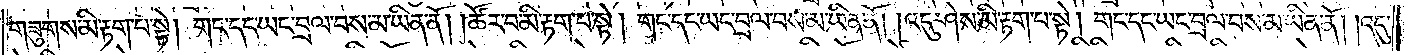གཟུགས་མི་རྟག་པ་སྟེ། གང་དང་ཡང་བྲལ་བས་མ་ཡིན་ནོ། །ཚོར་བ་མི་རྟག་པ་སྟེ། གང་དང་ཡང་བྲལ་བས་མ་ཡིན་ནོ། །འདུ་ཤེས་མི་རྟག་པ་སྟེ། གང་དང་ཡང་བྲལ་བས་མ་ཡིན་ནོ། །འདུ་
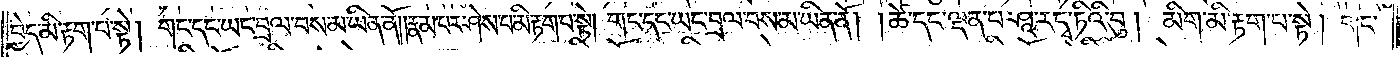བྱེད་མི་རྟག་པ་སྟེ། གང་དང་ཡང་བྲལ་བས་མ་ཡིན་ནོ། །རྣམ་པར་ཤེས་པ་མི་རྟག་པ་སྟེ། གང་དང་ཡང་བྲལ་བས་མ་ཡིན་ནོ། །ཚེ་དང་ལྡན་པ་ཤཱ་ར་དྭ་ཏིའི་བུ། མིག་མི་རྟག་པ་སྟེ། གང་
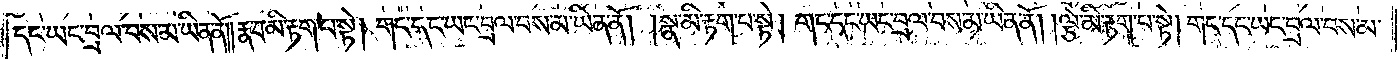དང་ཡང་བྲལ་བས་མ་ཡིན་ནོ། །རྣ་བ་མི་རྟག་པ་སྟེ། གང་དང་ཡང་བྲལ་བས་མ་ཡིན་ནོ། །སྣ་མི་རྟག་པ་སྟེ། གང་དང་ཡང་བྲལ་བས་མ་ཡིན་ནོ། །ལྕེ་མི་རྟག་པ་སྟེ། གང་དང་ཡང་བྲལ་བས་མ་
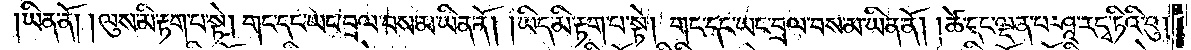ཡིན་ནོ། །ལུས་མི་རྟག་པ་སྟེ། གང་དང་ཡང་བྲལ་བས་མ་ཡིན་ནོ། །ཡིད་མི་རྟག་པ་སྟེ། གང་དང་ཡང་བྲལ་བས་མ་ཡིན་ནོ། །ཚེ་དང་ལྡན་པ་ཤཱ་ར་དྭ་ཏིའི་བུ།
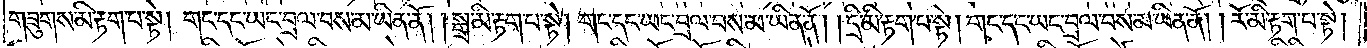གཟུགས་མི་རྟག་པ་སྟེ། གང་དང་ཡང་བྲལ་བས་མ་ཡིན་ནོ། །སྒྲ་མི་རྟག་པ་སྟེ། གང་དང་ཡང་བྲལ་བས་མ་ཡིན་ནོ། །དྲི་མི་རྟག་པ་སྟེ། གང་དང་ཡང་བྲལ་བས་མ་ཡིན་ནོ། །རོ་མི་རྟག་པ་སྟེ།
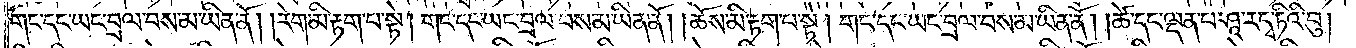གང་དང་ཡང་བྲལ་བས་མ་ཡིན་ནོ། །རེག་མི་རྟག་པ་སྟེ། གང་དང་ཡང་བྲལ་བས་མ་ཡིན་ནོ། །ཆོས་མི་རྟག་པ་སྟེ། གང་དང་ཡང་བྲལ་བས་མ་ཡིན་ནོ། །ཚེ་དང་ལྡན་པ་ཤཱ་ར་དྭ་ཏིའི་བུ།
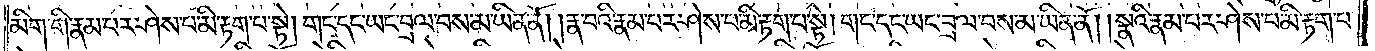མིག་གི་རྣམ་པར་ཤེས་པ་མི་རྟག་པ་སྟེ། གང་དང་ཡང་བྲལ་བས་མ་ཡིན་ནོ། །རྣ་བའི་རྣམ་པར་ཤེས་པ་མི་རྟག་པ་སྟེ། གང་དང་ཡང་བྲལ་བས་མ་ཡིན་ནོ། །སྣའི་རྣམ་པར་ཤེས་པ་མི་རྟག་པ་
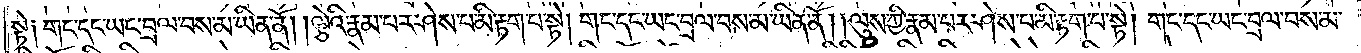སྟེ། གང་དང་ཡང་བྲལ་བས་མ་ཡིན་ནོ། །ལྕེའི་རྣམ་པར་ཤེས་པ་མི་རྟག་པ་སྟེ། གང་དང་ཡང་བྲལ་བས་མ་ཡིན་ནོ། །ལུས་ཀྱི་རྣམ་པར་ཤེས་པ་མི་རྟག་པ་སྟེ། གང་དང་ཡང་བྲལ་བས་མ་
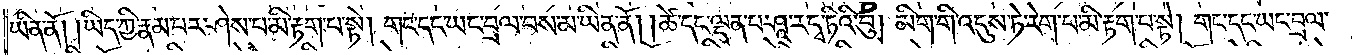ཡིན་ནོ། །ཡིད་ཀྱི་རྣམ་པར་ཤེས་པ་མི་རྟག་པ་སྟེ། གང་དང་ཡང་བྲལ་བས་མ་ཡིན་ནོ། །ཚེ་དང་ལྡན་པ་ཤཱ་ར་དྭ་ཏིའི་བུ། མིག་གི་འདུས་ཏེ་རེག་པ་མི་རྟག་པ་སྟེ། གང་དང་ཡང་བྲལ་
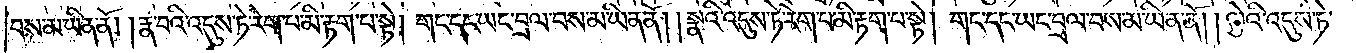བས་མ་ཡིན་ནོ། །རྣ་བའི་འདུས་ཏེ་རེག་པ་མི་རྟག་པ་སྟེ། གང་དང་ཡང་བྲལ་བས་མ་ཡིན་ནོ། །སྣའི་འདུས་ཏེ་རེག་པ་མི་རྟག་པ་སྟེ། གང་དང་ཡང་བྲལ་བས་མ་ཡིན་ནོ། །ལྕེའི་འདུས་ཏེ་
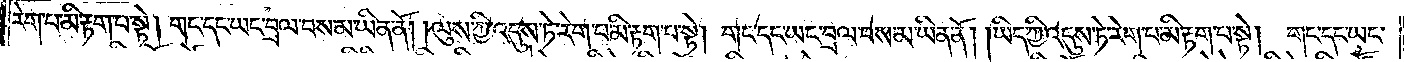རེག་པ་མི་རྟག་པ་སྟེ། གང་དང་ཡང་བྲལ་བས་མ་ཡིན་ནོ། །ལུས་ཀྱི་འདུས་ཏེ་རེག་པ་མི་རྟག་པ་སྟེ། གང་དང་ཡང་བྲལ་བས་མ་ཡིན་ནོ། །ཡིད་ཀྱི་འདུས་ཏེ་རེག་པ་མི་རྟག་པ་སྟེ། གང་དང་ཡང་
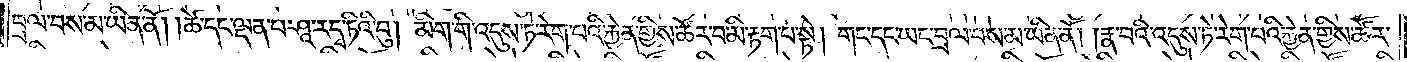བྲལ་བས་མ་ཡིན་ནོ། །ཚེ་དང་ལྡན་པ་ཤཱ་ར་དྭ་ཏིའི་བུ། མིག་གི་འདུས་ཏེ་རེག་པའི་རྐྱེན་གྱིས་ཚོར་བ་མི་རྟག་པ་སྟེ། གང་དང་ཡང་བྲལ་བས་མ་ཡིན་ནོ། །རྣ་བའི་འདུས་ཏེ་རེག་པའི་རྐྱེན་གྱིས་ཚོར་
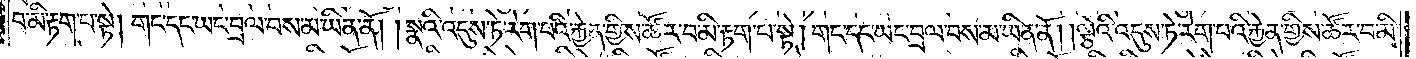བ་མི་རྟག་པ་སྟེ། གང་དང་ཡང་བྲལ་བས་མ་ཡིན་ནོ། །སྣའི་འདུས་ཏེ་རེག་པའི་རྐྱེན་གྱིས་ཚོར་བ་མི་རྟག་པ་སྟེ། གང་དང་ཡང་བྲལ་བས་མ་ཡིན་ནོ། །ལྕེའི་འདུས་ཏེ་རེག་པའི་རྐྱེན་གྱིས་ཚོར་བ་མི་
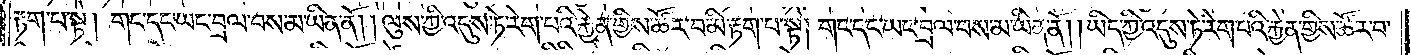རྟག་པ་སྟེ། གང་དང་ཡང་བྲལ་བས་མ་ཡིན་ནོ། །ལུས་ཀྱི་འདུས་ཏེ་རེག་པའི་རྐྱེན་གྱིས་ཚོར་བ་མི་རྟག་པ་སྟེ། གང་དང་ཡང་བྲལ་བས་མ་ཡིན་ནོ། །ཡིད་ཀྱི་འདུས་ཏེ་རེག་པའི་རྐྱེན་གྱིས་ཚོར་བ་
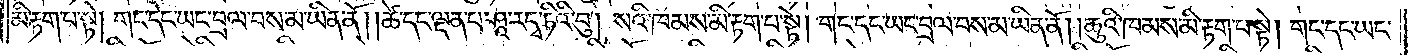མི་རྟག་པ་སྟེ། གང་དང་ཡང་བྲལ་བས་མ་ཡིན་ནོ། །ཚེ་དང་ལྡན་པ་ཤཱ་ར་དྭ་ཏིའི་བུ། སའི་ཁམས་མི་རྟག་པ་སྟེ། གང་དང་ཡང་བྲལ་བས་མ་ཡིན་ནོ། །ཆུའི་ཁམས་མི་རྟག་པ་སྟེ། གང་དང་ཡང་
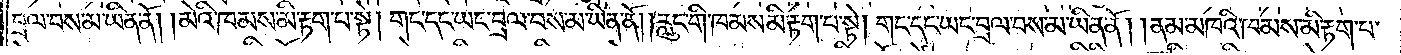བྲལ་བས་མ་ཡིན་ནོ། །མེའི་ཁམས་མི་རྟག་པ་སྟེ། གང་དང་ཡང་བྲལ་བས་མ་ཡིན་ནོ། །རླུང་གི་ཁམས་མི་རྟག་པ་སྟེ། གང་དང་ཡང་བྲལ་བས་མ་ཡིན་ནོ། །ནམ་མཁའི་ཁམས་མི་རྟག་པ་
